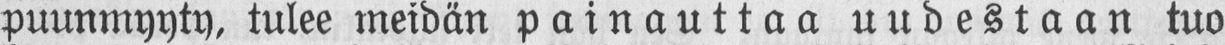puunmyyty, tulee meidän painauttaa uudestaan tuo
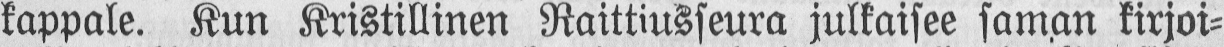kappale. Kun Kristillinen Raittiusseura julkaisee saman kirjoi-
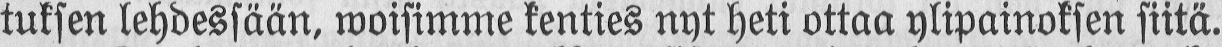tuksen tehdessään, woisimme kenties nyt heti ottaa ylipainoksen siitä.
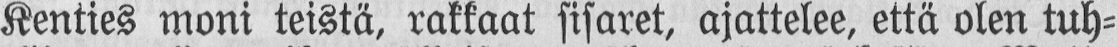Kenties moni teistä, rakkaat sisaret, ajattelee, että olen tuh-
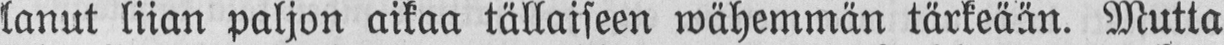lanut liian paljon aikaa tällaiseen wähemmän tärkeään. Mutta
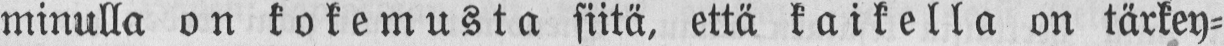minulla on kokemusta siitä, että kaikella on tärkey-
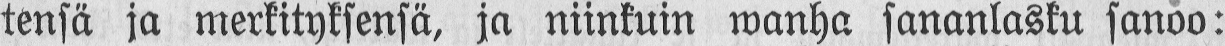tensä ja merkityksensä, ja niinkuin wanha sananlasku sanoo:
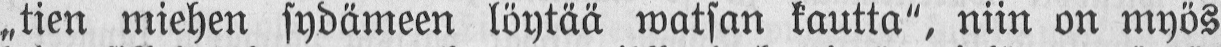„tien miehen sydämeen löytää watsan kautta", niin on myös
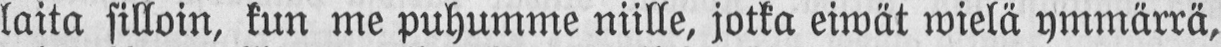laita silloin, kun me puhumme niille, jotka eiwät wielä ymmärrä,
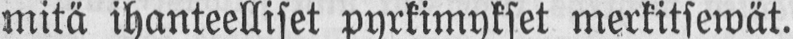mitä ihanteelliset pyrkimykset merkitsewät.
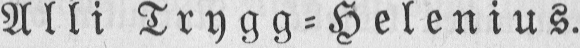Alli Trygg-Helenius.
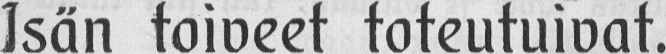Isän toiveet toteutuivat.
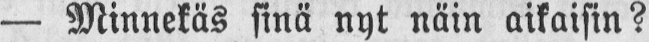— Minnekäs sinä nyt näin aikaisin?
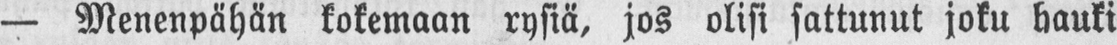— Menenpähän kokemaan rysiä, jos olisi sattunut joku hauki
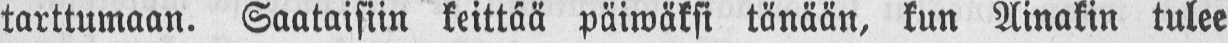tarttumaan. Saataisiin keittää päiwäksi tänään, kun Ainakin tulee
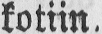kotiin.
